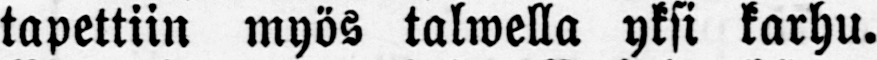tapettiin myös taiwella yksi karhu.
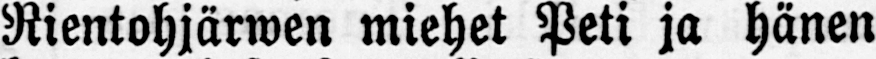Rientohjärwen miehet Peti ja hänen
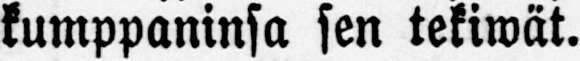kumppaninsa sen tekiwät.
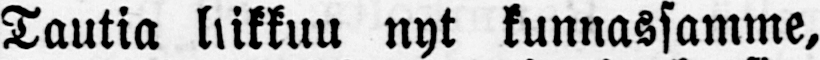Tautia liikkuu nyt kunnassamme,
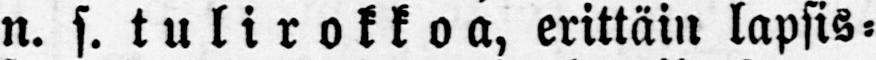n. s. tulirokkoa, erittäin lapsis-
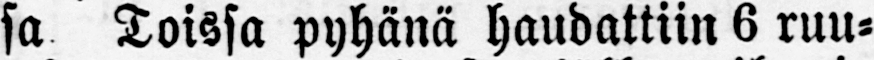sa Toissa pyhänä haudattiin 6 ruu-
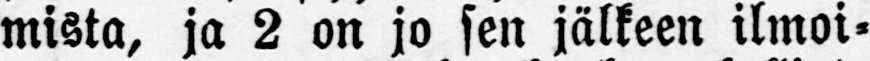mista, ja 2 on jo sen jälkeen ilmoi-
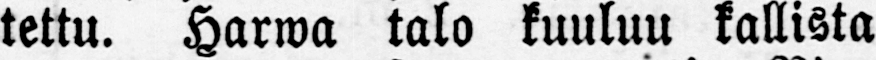tettu. Harwa talo kuuluu kallista
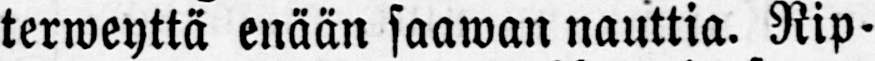terweyttä enään saawan nauttia. Rip-
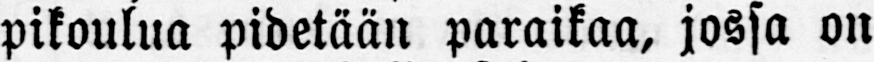pikoulua pidetään paraikaa, jossa on
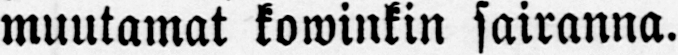muutamat kowinkin sairanna.
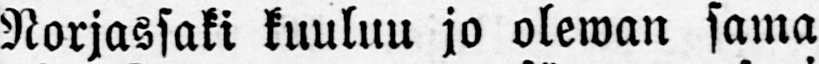Norjassaki kuuluu jo olewan sama
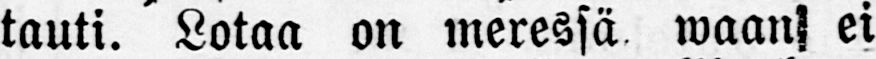tauti. Lotaa on meressä waan ei
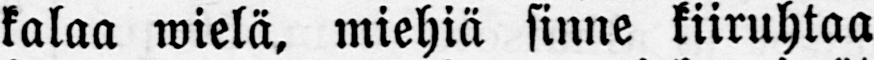kalaa wielä, miehiä sinne kiiruhtaa
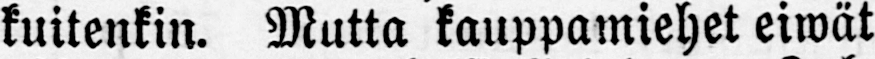kuitenkin. Mutta kauppamiehet eiwät
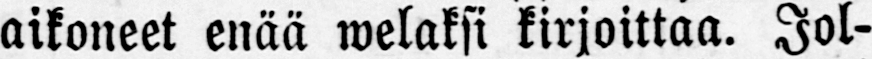aikoneet enää welaksi kirjoittaa. Jol-
